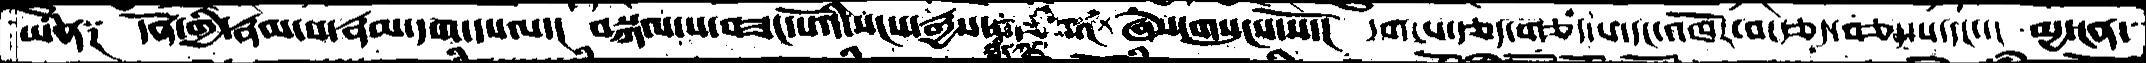ཡིན༑  དོན་གྱི་རྣམ་པ་རྣམ་དག་དཔལ་།  བསྐལ་པ་བཟང་པོའི་སངས་རྒྱས་གཅིག་། ཞེས་གསུངས་སོ་།  དགངས་རྩད་གཅད་པ་དང་འཁོར་བ་རྩད་བཅད་པ་དང་་།  མྱ་ངན་
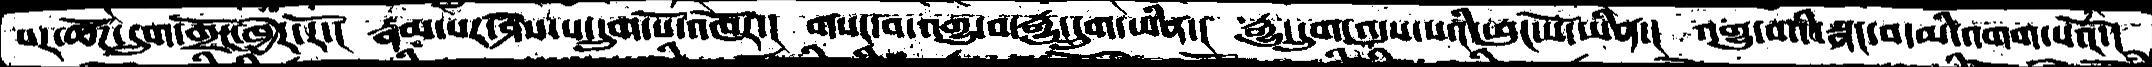པར་ཚོཌ་དྲུག་གྲོང་ཁྱེར་རོ་།   རྣམ་པར་ཤེས་པ་དྲུག་པོ་འཁོར་།  གསང་བ་འགྱུ་བ་རྒྱུ་དྲུག་ཡིན་།  རྒྱུ་དྲུག་འདུས་པའི་ཕུང་པོ་ཡིན་།  འགྱུ་བའི་སྣང་བ་མི་འགག་པའོ་།
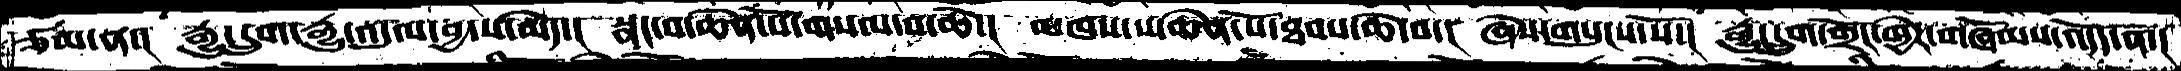ཙམ་ན་།  རྒྱུ་དྲུག་རྒྱུ་འདུལ་བྱ་ས་མེད་།  སྣང་བ་ཆེན་པོ་གསལ་བ་ཆེ་།  མཁས་པ་ཆེན་པོ་ཐབས་ཆེ་བ་།  ཞེས་གསུངས་སོ་།  རྒྱུ་དྲུག་གྲོང་ཁྱེར་གཞོམས་འདོད་ན་།
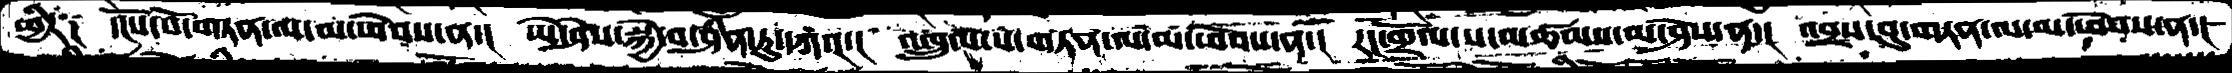ཕྱིར༑  དངོས་པོ་གཏན་ལ་མ་ཕེབས་ན་།  ཡེ་ཤེས་སྐྱེ་བ་ཤིན་ཏུ་དཀའ་།  འཁྲུལ་པ་གཏན་ལ་མ་ཕེབས་ན་།  རང་གྲོལ་ས་མཚམས་མ་ཤེས་ན་།  འབྲས་བུ་གཏན་ལ་མ་ཕེབས་ན་།
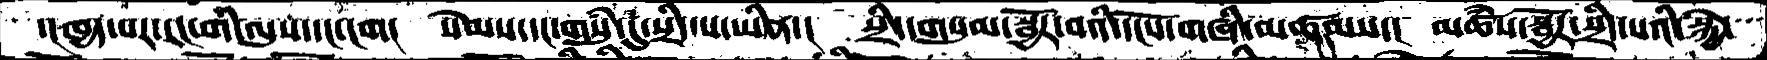་།ཁྱད་པར་རང་གི་ལུས་དང་ངག།  སེམས་དང་གསུཾ་དུ་སྲིད་པ་ཡིན་།  སྲིད་གསུམ་སྦྱོར་བའི་དངོས་གཞི་མཚམས་།  མཚཾས་སྦྱོར་སྲིད་པའི་སྐྱེ་
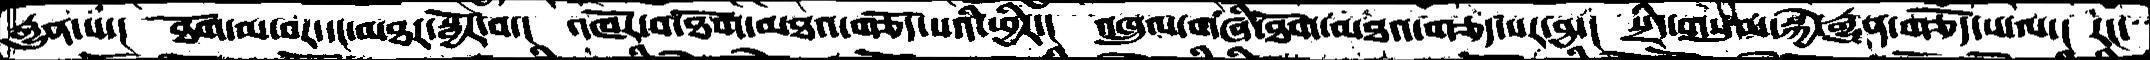རྒྱུན་པ་།   ཐོག་མ་བར་དང་མཐར་སྦྱོར་བ་།   འཁོར་བ་ཐོག་མཐའ་གཅོད་པའི་ཕྱིར་།   འཁྲུལ་གཞི་ཐོག་མཐའ་གཅད་པར་བྱ་།  སྲིད་གསུམ་སྐྱེ་རྒྱུན་གཅོད་པ་ལ་།  རང་
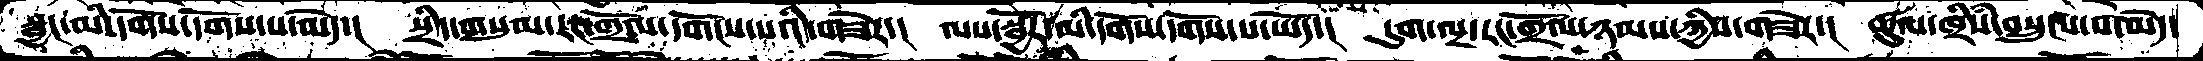སྦྱང་མི་དགོས་དགོས་པ་མེད་།  སྲིད་གསུམ་རང་གྲོལ་དགོངས་པའི་གཟེར་།  ལས་སྦྱོར་མི་དགོས་དགོས་པ་ཡོད་།  དུག་ལྔ་རང་གྲོལ་ཉམས་ཀྱིས་གཟེར་།  ཚུལ་ཁྲིཾས་བསྲུངས་བ་མེད་
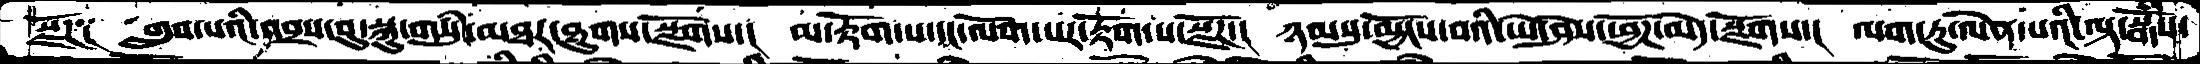སྫོཌ༑  གྲུབ་པའི་འབྲས་བུ་སྐུ་གསུཾ་མཐར་ཐུགས་སྫོགས་།  མ་རྟོག་པ་དང་ལོག་པར་རྟོག་པ་སྫོཌ་།  ཉམསུ་མྱོངས་བའི་ཡེ་ཤེས་ཕྱོཌ་མེད་སྫོགས་།  ལག་ཏུ་ལེན་པའི་ལྟ་སྒོཾས་།
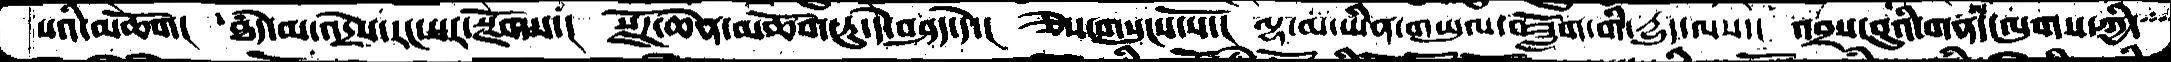པའི་མཆོག།  ཐཾད་མ་འདྲེས་རང་སར་སྫོགས་།  སྫོཌ་ཆེན་མཆོག་ཏུ་དེ་བཤད་དེ་།  ཅེས་གསུངས་སོ་།  ལྷ་མ་ཡིན་གཡུལ་བཟློག་གི་དྱུད་ལས་།  འབྲས་བུའི་གནད་ལུགས་ཀྱི་
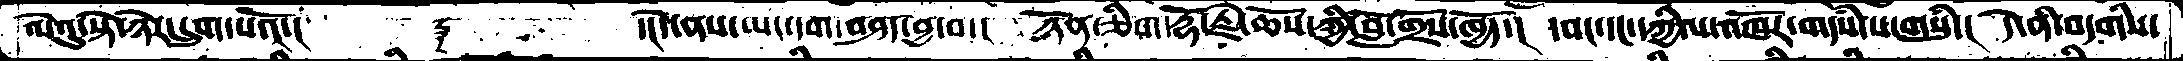ལེའུ་སྟེ་ཉེར་དྲུག་པའོ་།    ༈        ་།དེ་ནས་ཡང་དག་བཤད་བྱ་བ་།  ཉོན་ཅིག་རྡོ་རྗེ་ཆོས་ཀྱི་བློ་གྲོས་ཁྱོད་།  དབང་དང་དཀྱིལ་འཁོར་གདཾས་པ་གསུཾ་།  དེ་ནི་བདགིས་
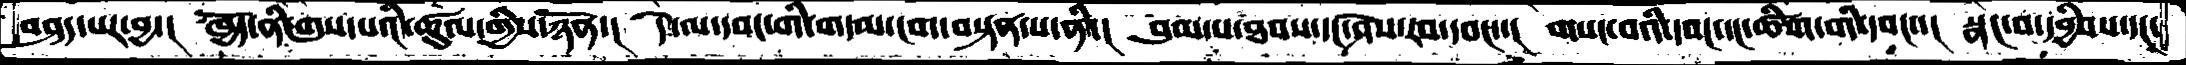བཤད་པར་བྱ་།   ཁྱོད་ནི་གུས་པའི་ཚུལ་གྱིས་ཉོན་།  དེ་ལ་དབང་གི་གདམ་ངག་བསྟན་པ་ནི་།  བུམ་པ་ཐབས་དང་ཤེས་རབ་དབང་་།  གསང་བའི་དབང་དང་ཚིག་གི་དབང་་།  སྣང་བ་དབྱིངས་དང་
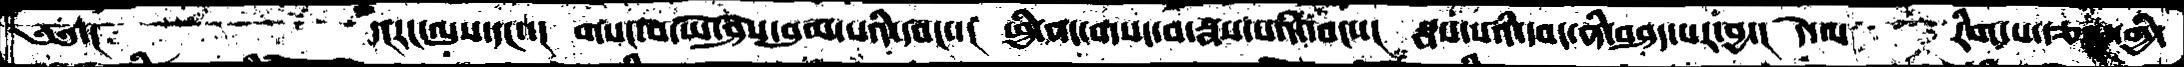༄༅་།   ་།རང་ལུས་དང་་།  གསང་བ་ཡེ་ཤེས་བུམ་པའི་དབང་།  ཕྱི་ནང་གསང་བ་རྣས་པའི་དབང་་།  སྦས་པའི་དབང་ནི་བཤད་པར་བྱ་། དེ་ལ་  རིག་པ་རྩལ་གྱི་
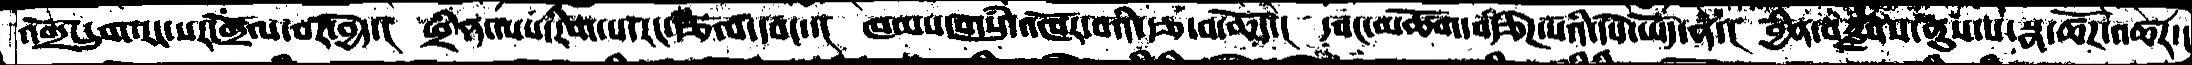འགྲོ་དྲུག་རང་སར་གྲོལ་བར་བྱེད་།  ཕྲིན་ལས་རིག་པ་རང་རྩལ་དབང་་།  ཁམས་གསུཾ་འཁོར་བའི་རྩ་བ་ཆོད་།  དབང་མཆོག་བརྩེཌ་པའི་དསེ་ཡོད་ན་།  བྱིན་བརླབས་ནུས་པ་སྣ་ཚོཌ་འཚར་།
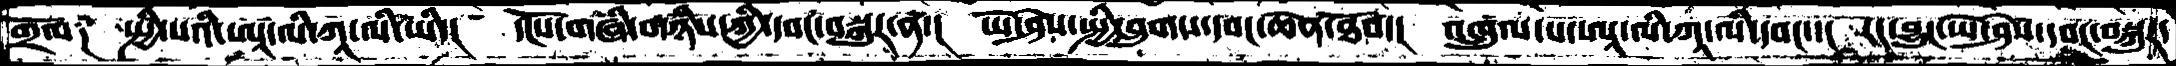གྲོལ༑  སྤྱི་པའི་ཨཱ་ལི་ཀཱ་ལི་ཡི་།  དངོས་གཞི་གཉིས་ཀྱི་དབང་བསྐུར་ན་།  ཡེ་ཤེས་སྤྱི་བླུགས་དབང་ཆེན་ཐོབ་།  འཁྲུལ་པ་ཨཱ་ལི་ཀཱ་ལི་དབང་་།  རང་བྱུང་ཡེ་ཤེས་དབང་བསྐུར་
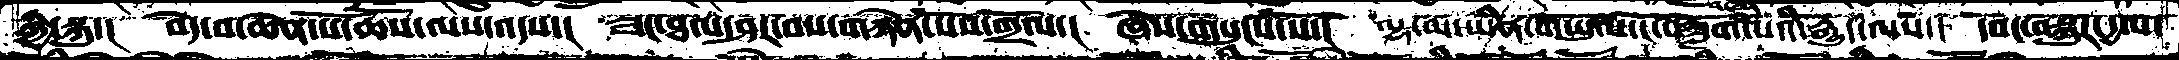གྱི་སྐུ་།  བདེ་བ་ཆེན་པོ་ཆོས་ལས་འདས་།  ཟང་ཐལ་ཤར་བས་གཉེན་པོས་གྲོལ་།  ཞེས་གསུངས་སོ་།  ལྷ་མ་ཡིན་གཡུལ་ངོ་བཟློག་པའིརྒྱུད་ལས་།  དབང་བསྐུར་དྱལ་
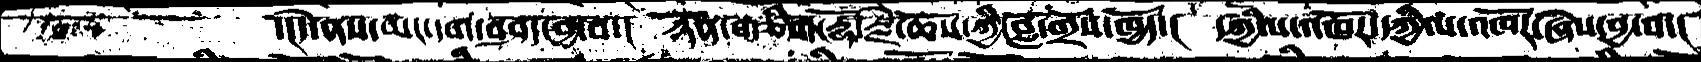་།དེ་ནས་ཡང་དག་བཤད་བྱ་བ་།  ཉོན་གཅིག་རྡོ་རྗེ་ཆོས་ཀྱི་བློ་གྲོས་ཁྱོད་།  དཀྱིལ་འཁོར་དཀྱིལ་འཁོར་ཞེས་བྱ་བ་།
